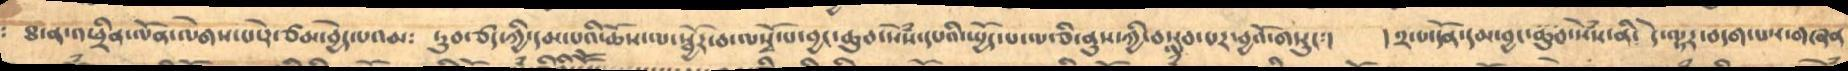ཐ་ན་འཕྲིན་ལོན་ལེགས་པ་དེ་ཙམ་བྱེད་པའམ༴ ཏུབ་ཙད་ཀྱི་དམ་པའི་ཆོས་ལ་སྦྱོར་བ་ལསྭོ་པ་བྱང་ཆུབ་སེཾས་དཔའི་སྤྱོད་པ་ལ་ཅི་ནུས་ཀྱི་བསླབ་པར་བྱའོ་གསུང༴། །༢་པ་དོན་དམ་བྱང་ཆུབ་སེཾས་ནི་ དེ་ལྟར་བདག་པས་གཞན
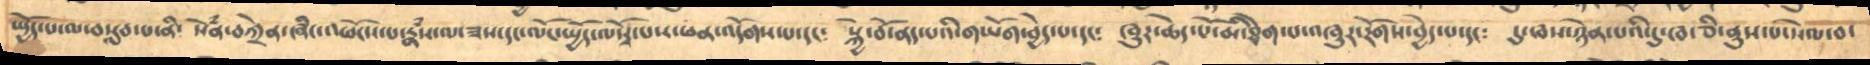སྤྱོད་པ་ལ་བསླབ་པ་ནི་ སེཾན་བཀྲེན་ཞིང་འཕོངས་པ་རྣཾས་ལ་ཟས་དང་ལོང་སྤྱོད་ལསྭོ་པས་ཕན་འདོགས་པ་དང༴ སྐྱེ་བོ་ནད་པའི་གཡོག་བྱེད་པ་དང༴ ཁུར་ཆེད་པོ་མི་ཐེག་པ་འཞུར་རོགས་བྱེད་པ་དང༴ དུ་ཁས་ཉེན་པའི་དུ་ཁ་ཅི་ནུས་པ་སེལ་བ་
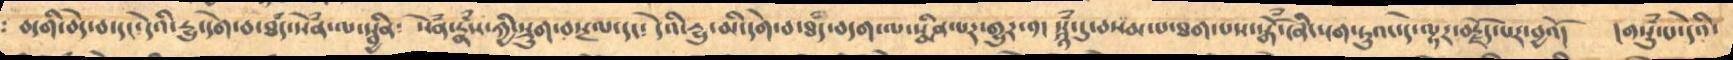བདགི་བདེ་བ་དང་དེའི་རྱུ་དགེ་བ་ཐཾད་སེཾན་ལ་སྦྱིན་ སེཾན་རྣཾས་ཀྱི་སྡུག་བསྔལ་དང་དེའི་རྱུ་མི་དགེ་བ་ཐཾད་བདག་ལ་སྨིན་པར་གྱུར་༡། སྙཾ་དུ་བསམ་པ་ཐག་པས་སྒོཾ་ཞིང་ངག་ཏུའང་དེ་ལྟར་བརྗོད་པར་བྱའོ། །གསུཾ་པ་དེའི་
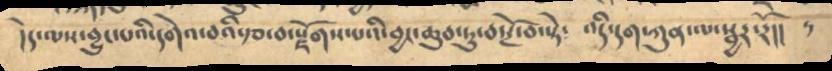།དེ་ལས་བྱུང་པའི་དགེའ་བའི་རྩ་བ་སྫོགས་པའི་བྱང་ཆུབ་ཏུ་བསྔོ་བ་སྟེ༴ འདི་དག་ཀུན་ལ་སྦྱར་རོ།།
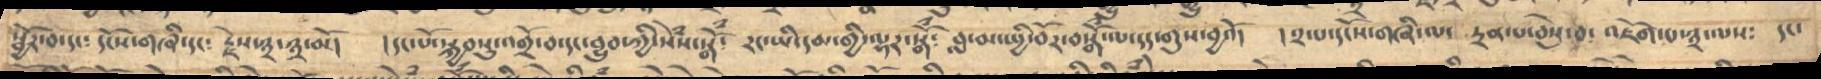སྦྱོར་བ་དང༴ དངོས་གཞི་དང༴ རྗེས་༣་༣་མོ། །དང་པོ་སྐྱབསུ་འགྲོ་བ་དང་བྱུབ་ཀྱི་སེཾས་སྒོཾ་ རང་ཡི་དམ་གྱི་ལྷར་སྒོཾ༴ བླ་མ་སྤྱི་བོར་བསྒོཾ་ལ་དད་གུས་བྱའོ། །༢་པ་དངོས་གཞི་ལ་ དྲན་པ་ཅེསུ་བ་ འཇོག་པ་༣་ལས༴ དང་
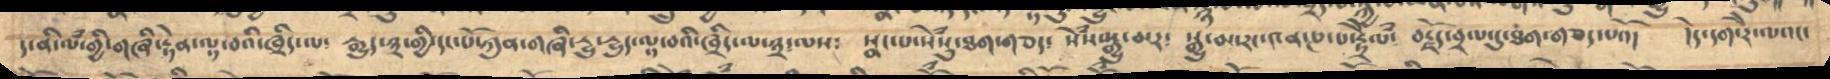ད་ནི་ལཾ་གྱི་གཞི་རྟེན་ལྟ་བའི་ཁྲིད་ལ༴  རྒྱུད་༣་གྱི་དང་པོ་ཀུན་གཞི་དྱུ་དྱུད་ལྟ་བའི་ཁྲིད་ལ་༣་ལས༴   སྣང་པ་སེྃསུ་ཐག་གཅད་   སེཾས་སྒྱུ་མར༴   སྒྱུ་མ་རང་༤ན་ཎ་པ་རྟྲེལཾ༴   བརྗོད་བྲལ་དུ་ཐག་གཅད་པའོ།   དེ་དག་རེ་ལའང་
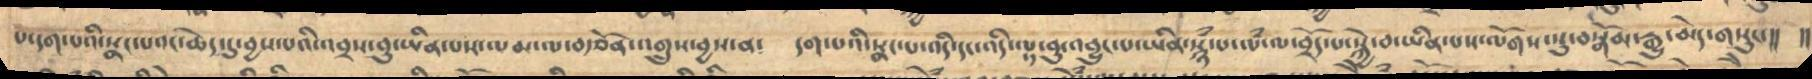པ་དག་པའི་སྣང་པའང་ཆེད་དུ་བྱས་པའི་འབྲས་བུ་ཡིན་པས་ལམ་ལ་བརྩོན་འགྲུས་བྱས་ན༴ དག་པའི་སྣང་པ་འདི་དང་འདི་ལྟ་བུ་འབྱུང་པ་ཡིན་སྙཾ་པ་ལཾ་ལ་བྲོད་པ་སྐྱེ་བ་ཡིན་པས་ལོགས་སུ་བསྒོམ་རྒྱུ་མེད་གསུང་།། །།
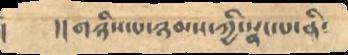། །།གཉིས་པ་ཉམས་ཀྱི་སྣང་པ་ནི༴
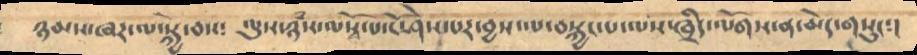ཉམས་ཞར་ལ་སྐྱེ་བས༴ ལུས་ཉཾས་ལསྭོ་པ་ངོ་ཤེས་པར་བྱས་ལ་བསྐྱང་པ་ལས་ཁྲིད་ལོགས་ན་མེད་གསུང༴།
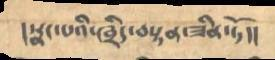།སྣང་པའི་ཁྲིད་བསྟན་ཟིན་ཏོ།།
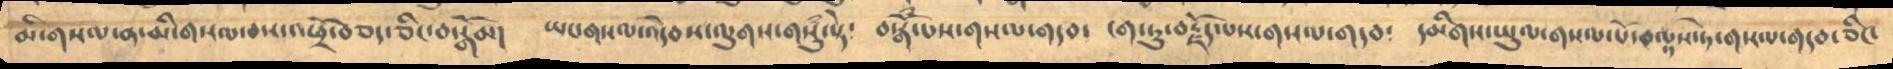མི་གསལ་ན་མི་གསལ་བས་འཕྲོ་བཅད་ཅིང་བསྒོམ། ཡང་གསལ་འདེབས་ལུགས་གསུཾ་སྟེ༴ བསྒོཾ་པས་གསལ་གདབ་ ངག་ཏུ་བརྗོད་པས་གསལ་གདབ༴ དམིགས་ཡུལ་གསལ་པོ་བལྟས་ཏེ་གསལ་གདབ་ཅིང་
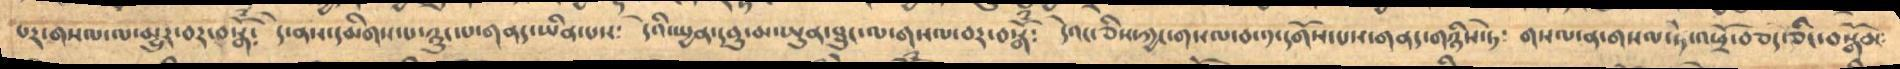པར་གསལ་ལ་མྱུར་བར་བསྒོཾ༴ ད་ེནས་དམིགས་པ་ཉུང་པ་གནད་ཡིན་པས༴ དེའི་སྤྱན་དབུ་མ་ཡུན་ཐུང་ལ་གསལ་བར་བསྒོཾ༴ དེའང་ཅིས་ཀྱང་གསལ་བ་༡་དགོས་པས་གནད་གཉིས་ཏེ༴ གསལ་ན་གསལ་ཏེ་འཕྲོ་བཅད་ཅིང་བསྒོམ
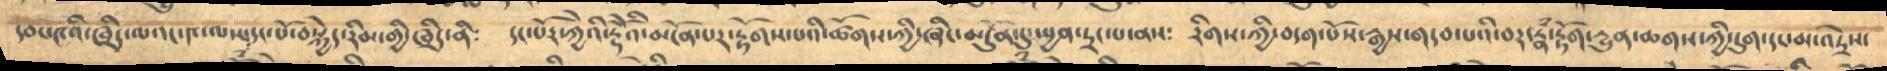དབང་༤འི་ཁྲིད་ལའང་༤་ལས་དང་པོ་བསྐྱེད་རིམ་གྱི་ཁྲིད་ནི༴ དང་པོར་ཀྱཻའི་རྡོེའི་མངོན་པར་རྟོགས་པའི་ཚོགས་ཀྱི་ཞིང་མངོན་དུ་སྤྱན་དྲང་པ་ནས༴ རིགས་ཀྱི་བདག་པོས་རྒྱས་གདབ་པའི་བར་རྣཾ་རྟོག་རྱུན་ཆགས་ཀྱི་དུག་དང་མ་འདྲེས་
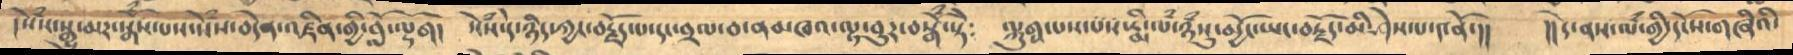།སེཾས་སྒྱུ་མར་སྒོཾ་པས་སེཾས་བདེན་འཛིན་གྱི་བློ་ལྡོག། སེཾས་དེ་ཉིད་ཀྱང་བརྗོད་པ་དང་བྲལ་བ་ནམཁའ་ལྟ་བུར་བསྒོཾ་སྟེ༴ ལྐུགྶ་པས་པས་རྨི་ལཾ་ཉཾསུ་མྱོང་ཡང་བརྗོད་མི་ཤེས་པ་༤ནོ་།། །།དེ་ནས་ལཾ་གྱི་དངོས་གཞིའི་
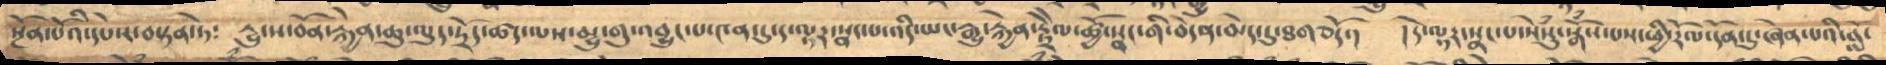སྔོན་པོའི་དཔེས་བསྟན་ཏེ༴ རྱུ་ས་བོན་རྐྱེན་ཆུ་ལུད་དྲོད་ཚད་ལས་མྱུ་གུ་འབྱུང་པ་༤ན་དུ་ད་ལྟར་སྣང་པ་འདི་ཡང་རྒྱུ་རྐྱེན་རྟྲཻལ་ཚྱོ་སྣང་གི་བདེན་མེད་དུ་ཐགཅདོ་། །དེ་ལྟར་སྣང་པ་སེཾསུ་སྒོཾས་པས་ཕྱི་རོལ་དོན་དུ་ཞེན་པའི་བློ་
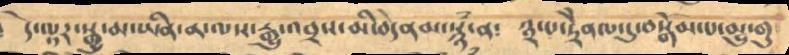དེ་ལྟར་སྒྱུ་མ་ཡིན་ན་ལས་རྒྱུ་འབྲས་མི་བདེནམ་སྙཾ་ན༴ ༣་པ་རྟྲཻན་པ་དུ་བསྒོམ་པ་མྱུ་གུ
